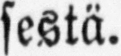sestä.
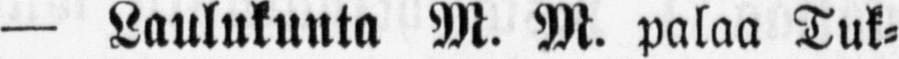— Laulukunta M. M. palaa Tuk-
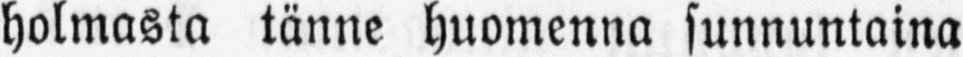holmasta tänne huomenna sunnuntaina
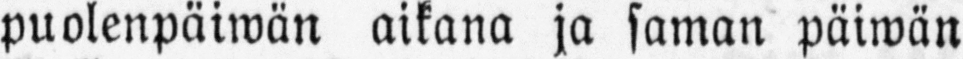puolenpäiwän aikana ja saman päiwän
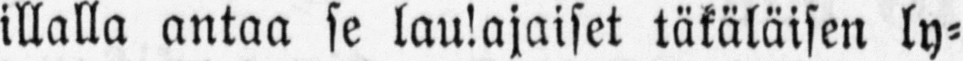illalla antaa se laulajaiset täkäläisen ly-
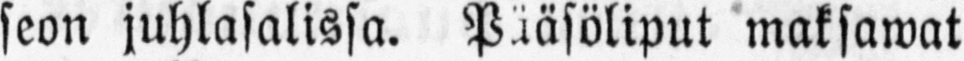seon juhlasalissa. Pääsöliput maksawat
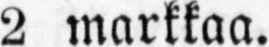2 markkaa.
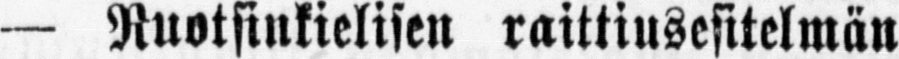— Ruotsinkielisen raittiusesitelmän
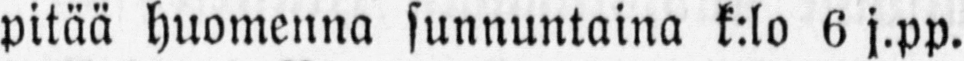pitää huomenna sunnuntaina k:lo 6 j.pp.
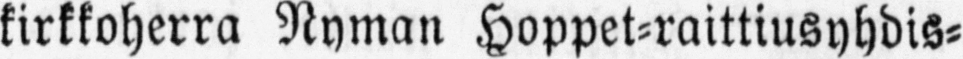kirkkoherra Nyman Hoppet-raittiusyhdis-
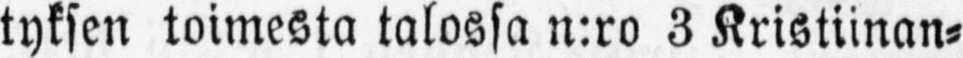tyksen toimesta talossa n:ro 3 Kristiinan-
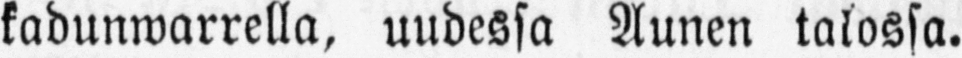kadunwarrella, uudessa Aunen talossa.
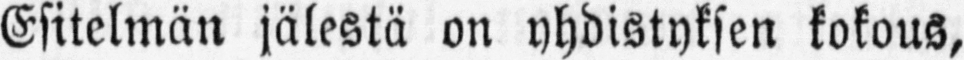Esitelmän jälestä on yhdistyksen kokous,
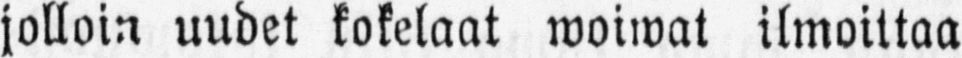jolloin uudet kokelaat woiwat ilmoittaa
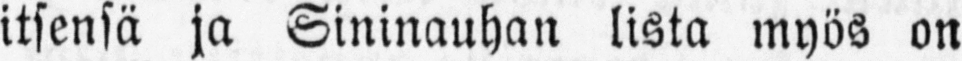itsensä ja Sininauhan lista myös on
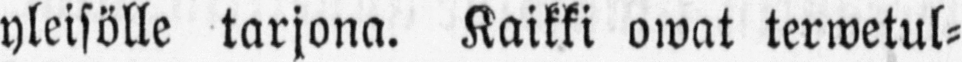yleisölle tarjona. Kaikki owat terwetul-
